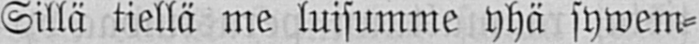Sillä tiellä me luisumme yhä sywem-
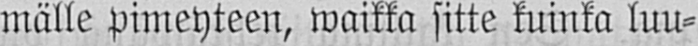mälle pimeyteen, waikka sitte kuinka luu-
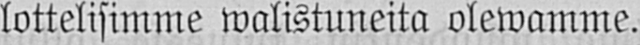lottelisimme walistuneita olewamme.
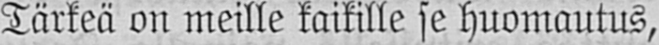Tärkeä on meille kaikille se huomautus,
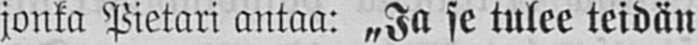jonka Pietari antaa: „Ja se tulee teidän
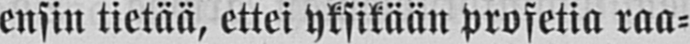ensin tietää, ettei yksikään profetia raa-
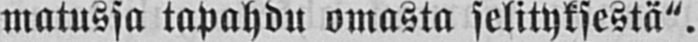matussa tapahdu omasta selityksestä".
